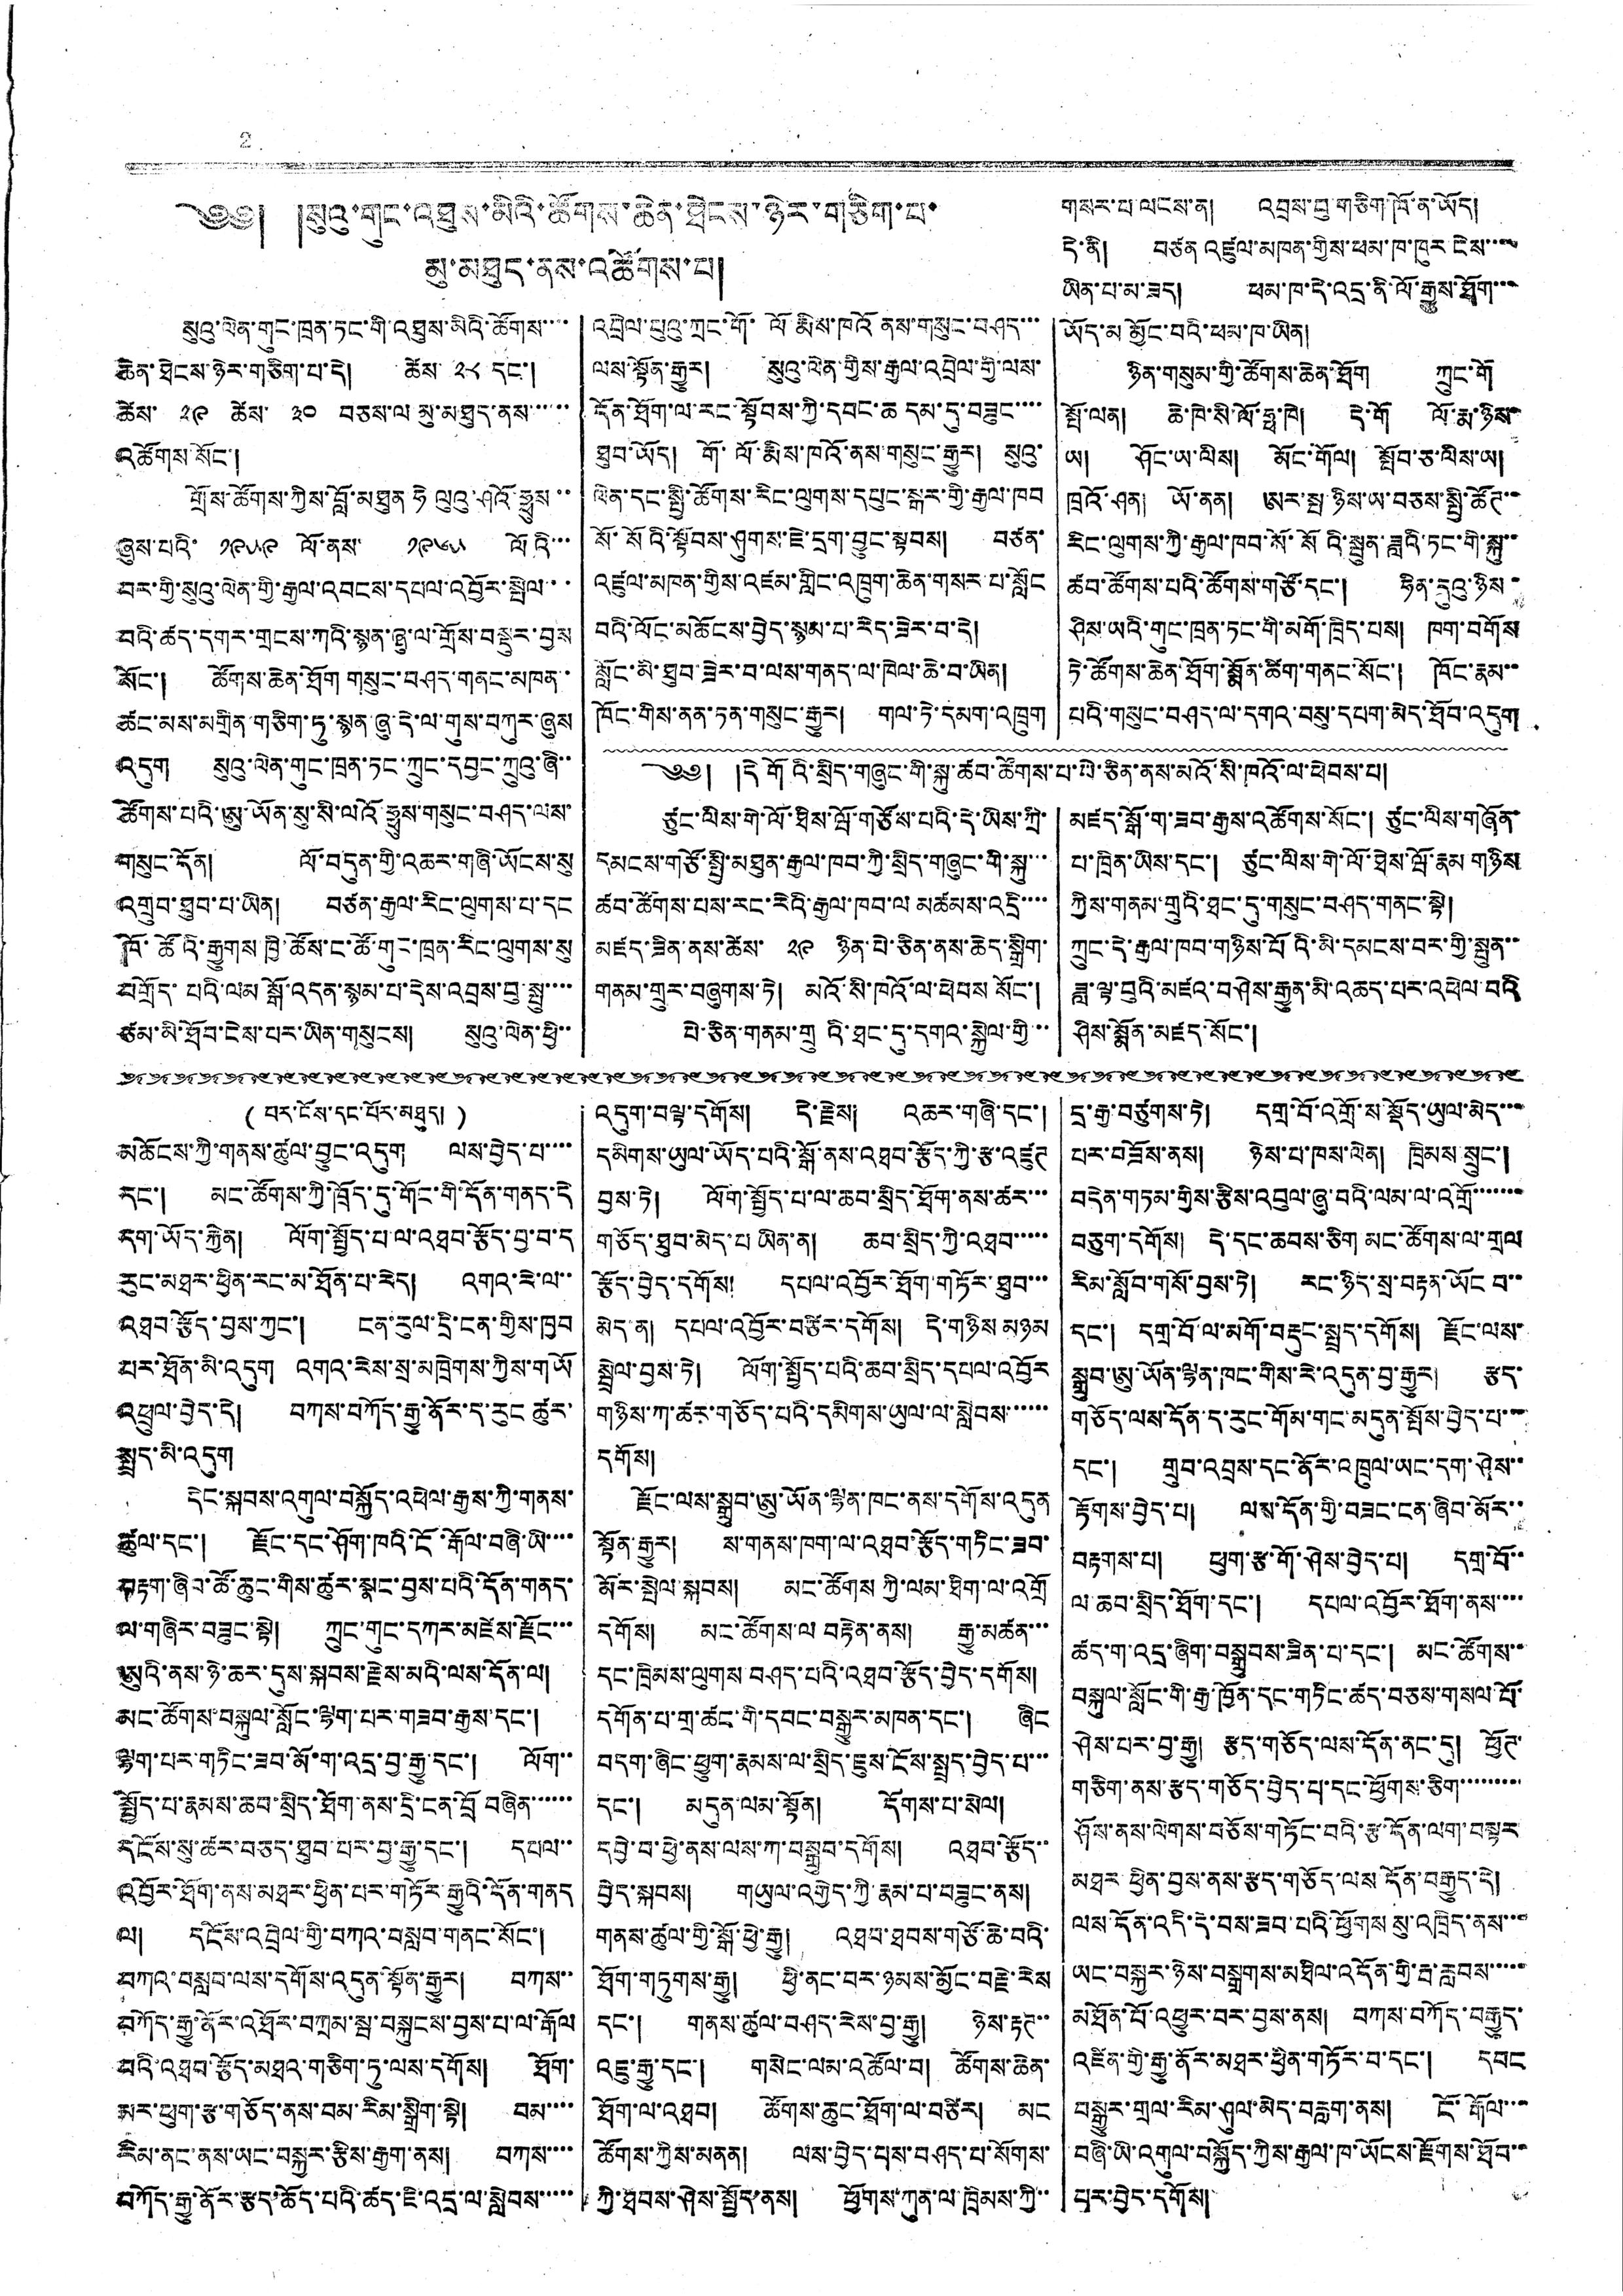2
༄༅། །སུའུ་གུང་འཐུས་མིའི་ཚོགས་ཆེན་ཐེངས་ཉེར་གཅིག་པ་
མུ་མཐུད་ནས་འཚོགས་པ།
སུའུ་ལེན་གུང་ཁྲན་ཏང་གི་འཐུས་མིའི་ཚོགས་་་་
ཆེན་ཐེངས་ཉེར་གཅིག་པ་དེ། ཚེས་ ༢༨ དང་།
ཚེས་ ༢༩ ཚེས་ ༣༠ བཅས་ལ་མུ་མཐུད་ནས་་་་་་
འཚོགས་སོང་།
གྲོས་ཚོགས་ཀྱིས་བློ་མཐུན ཧེ ལུའུ་ཤའོ་ཧྥུས་་
ཞུས་པའི་ ༡༩༥༩ ལོ་ནས་ ༡༩༦༥ ལོའི་་་
བར་གྱི་སུའུ་ལེན་གྱི་རྒྱལ་འབངས་དཔལ་འབྱོར་སྤེལ་་
བའི་ཚད་དགར་གྲངས་ཀའི་སྙན་ཞུ་ལ་གྲོས་བསྡུར་བྱས
སོང་། ཚོགས་ཆེན་ཐོག གསུང་བཤད་གནང་མཁན་་
ཚང་མས་མགྲིན་གཅིག་ཏུ་སྙན་ཞུ་དེ་ལ་གུས་བཀུར་ཞུས
འདུག སུའུ་ལེན་གུང་ཁྲན་ཏང་ཀྲུང་དབྱང་ཀྲུའུ་ཞི་་
ཚོགས་པའི་ཨུ་ཡོན་སུ་སི་ལའོ་ཧྥུས་གསུང་བཤད་ལས་
གསུང་དོན། ལོ་བདུན་གྱི་འཆར་གཞི་ཡོངས་སུ་
འགྲུབ་ཐུབ་པ་ཡིན། བཙན་རྒྱལ་རིང་ལུགས་པ་དང
ཁོ་ཚོའི་རྒྱུགས་ཁྱི་ཚོས་ང་ཚོ་གུང་ཁྲན་རིང་ལུགས་སུ
བགྲོད་པའི་ལམ སྒོ་འདན་སྙམ་པ་དེས་འབྲས་བུ་སྤུ་་་་
ཙམ་མི་ཐོབ་ངེས་པར་ཡིན་གསུངས། སུའུ་ལེན་ཕྱི་་
འབྲེལ་པུའུ་ཀྲང་གོ་ལོ་རྨིས་ཁོའོ ནས་གསུང་བཤད་་་
ལས་སྟོན་རྒྱུར། སུའུ་ལེན་གྱིས་རྒྱལ་འབྲེལ་གྱི་ལས་
དོན་ཐོག་ལ་རང་སྟོབས་ཀྱི་དབང་ཆ དམ་དུ་བཟུང་་་་
ཐུབ་ཡོད། གོ་ལོ་རྨིས་ཁའོ་ནས་གསུང་རྒྱུར། སུའུ་
ལེན་དང་སྤྱི་ཚོགས་རིང་ལུགས་དཔུང་སྒར་གྱི་རྒྱལ་ཁབ
སོ་སོའི་སྟོབས་ཤུགས་ཇེ་དྲག་བྱུང་སྟབས། བཙན་
འཛུལ་མཁན་གྱིས་འཛམ་གླིང་འཁྲུག་ཆེན་གསར་པ་སློང
པའི་ལོང་མཆོངས་བྱེད་སྙམ་པ་རེད་ཟེར་བ་དེ།
སློང་མི་ཐུབ་ཟེར་བ་ལས་གནད་ལ་ཁེལ་ཆེ་བ་ཡིན།
ཁོང་གིས་ནན་ཏན་གསུང་རྒྱུར། གལ་ཏེ་དམག་འཁྲུག
གསར་པ་ལངས་ན། འབྲས་བུ་གཅིག་ཁོ་ན་ཡོད།
དེ་ནི། བཙན འཛུལ་མཁན་གྱིས་ཕམ་ཁ་ཁུར་ངེས་་་་་
ཡིན་པ་མ་ཟད། ཕམ་ཁ་དེ་འདྲ་ནི་ལོ་རྒྱུས་ཐོག་་་
ཡོད་མ མྱོང་བའི་ཕམ་ཁ་ཡིན།
ཉིན་གསུམ་གྱི་ཚོགས་ཆེན་ཐོག ཀྲུང་གོ
སྤོ་ལན། ཆེ་ཁེ་སི་ལོ་ཧྥ་ཁེ། དེ་གོ ལོ་རྨ་ཉིས་
ཡ། ཤོང་ཡ་ལིས། མོང་གོལ། སྤོབ་ཅ་ལིས་ཡ།
ཁྲའོ་ཤན། ཡོ་ནན། ཨར་སྤ་ཉིས་ཡ་བཅས་སྤྱི་ཚོཊ་་
རིང་ལུགས་ཀྱི་རྒྱལ་ཁབ་སོ་སོའི་སྦུན་ཟླའི་ཏང་གི་སྐུ་་
ཚབ་ཚོགས་པའི་ཚོགས་གཙོ་དང་། ཧིན་དུའུ་ཉིས་
ཤིས་ཡའི་གུང་ཁྲན་ཏང་གི་མགོ་ཁྲིད་པས། ཁག་བགོས
ཏེ་ཚོགས་ཆེན་ཐོག་སྨོན་ཚིག་གནང་སོང་། ཁོང་རྣམ་་
པའི་གསུང་བཤད་ལ་དགའ་བསུ་དཔག་མེད་ཐོབ་འདུག
༄༅། །དེ གོའི་སྲིད་གཞུང་གི་སྐུ་ཚབ་ཚོགས་པ་པེ་ཅིན་ནས་མའོ་སི་ཁའོ་ལ་ཕེབས་པ།
ཙུང་ལིས་གེ་ལོ་ཐིས་ཝོ་གཙོས་པའི་དེ་ཡིས་ཀྲི་
དམངས་གཙོ་སྤྱི་མཐུན་རྒྱལ་ཁབ་ཀྱི་སྲིད་གཞུང་གི་སྐུ་་་
ཚབ་ཚོགས་པས་རང་རེའི་རྒྱལ་ཁབ་ལ མཚམས་འདྲི་་་་
མཛད་ཟིན་ནས་ཚེས་ ༢༩ ཉིན་པེ་ཅིན་ནས་ཆེད་སྒྲིག་
གནམ་གྲུར་བཞུགས་ཏེ། མའོ་སི་ཁའོ་ལ་ཕེབས སོང་།
པེ་ཅིན་གནམ་གྲུའི་ཐང་དུ་དགའ་སྐྱེལ་གྱི་་་
མཛད་སྒོ་ག་ཟབ་རྒྱས་འཚོགས་སོང་། ཙུང་ལིས་གཞོན་
པ་ཁྲིན་ཡིས་དང་། ཙུང་ལིས་གེ་ལོ་ཐེས་ཝོ་རྣམ་གཉིས
ཀྱིས་གནམ་གྲུའི་ཐང་དུ་གསུང་བཤད་གནང་སྟེ།
ཀྲུང་དེ་རྒྱལ་ཁབ་གཉིས་པོའི་མི་དམངས་བར་གྱི་སྤུན་་
ཟླ་ལྟ་བུའི་མཛའ་བཤེས་རྒྱུན་མི་འཆད་པར་འཕེལ་བའི
ཤིས་སྨོན་མཛད་སོང་།
( པར་ངོས་དང་པོར་མཐུད། )
མཆོངས་ཀྱི་གནས་ཚུལ་བྱུང་འདུག ལས་བྱེད་པ་་་་
དང་། མང་ཚོགས་ཀྱི་ཁྲོད་དུ་གོང་གི་དོན་གནད་དེ
དག་ཡོད་རྐྱེན། ལོག་སྤྱོད་པ་ལ་འཐབ་རྩོད་བྱ་བ་ད
རུང་མཐར་ཕྱིན་རང་མ་ཐོན་པ་རེད། འགའ་རེ་ལ་་
འཐབ་རྩོད་བྱས་ཀྱང་། ངན་རུལ་དྲི་ངན་གྱིས་ཁྱབ
པར་ཐོན་མི་འདུག འགའ་རེས་སྲ་མཁྲེགས་ཀྱིས་གཡོ
འཕྲུལ་བྱེད་དེ། བཀས་བཀོད་རྒྱུ་ནོར་ད་རུང ཚུར་
སྤྲད་མི་འདུག
དེང་སྐབས་འགུལ་བསྐྱོད་འཕེལ་རྒྱས་ཀྱི་གནས་
ཚུལ་དང་། རྫོང་དང་ཤོག་ཁའི་ངོ་རྒོལ་བཞི་ཡི་་་་
བརྟག་ཞིབ་ཚོ་ཆུང་གིས་ཚུར་སྣང་བྱས་པའི་དོན་གནད་
ལ་གཞིར་བཟུང་སྟེ། ཀྲུང་གུང་དཀར་མཛེས་རྫོང་་་
ཨུའི་ནས་ཉེ་ཆར་དུས་སྐབས་རྗེས་མའི་ལས་དོན་ལ།
མང་ཚོགས་བསྐུལ་སློང་ལྷག་པར་གཟབ་རྒྱས་དང་།
ལྷག་པར་གཏིང་ཟབ་མོ་ག་འདྲ་བྱ་རྒྱུ་དང་། ལོག་་
སྤྱོད་པ་རྣམས་ཆབ་སྲིད་ཐོག་ནས་དྲི་ངན་བྲོ བཞིན་་་་་་
དངོས་སུ་ཚར་བཅད་ཐུབ་པར་བྱ་རྒྱུ་དང་། དཔལ་་
འབྱོར་ཐོག་ནས་མཐར་ཕྱིན་པར་གཏོར་རྒྱུའི་དོན་གནད
ལ། དངོས་འབྲེལ་གྱི་བཀའ་བསླབ་གནང་སོང་།
བཀའ་བསླབ་ལས་དགོས་འདུན་སྟོན་རྒྱུར། བཀས་་
བཀོད་རྒྱུ་ནོར་འཐོར་བཀྲམ་སྦ་བསྐུངས་བྱས་པ་ལ་རྒོལ
བའི་འཐབ་རྩོད་མཐར་གཅིག་ཏུ་ལས་དགོས། ཐོག་
མར་ཕུག་རྩ་གཅོད་ནས་བམ་རིམ་སྒྲིག་སྟེ། བམ་་་་
རིམ་ནང་ནས་ཡང་བསྐྱར་རྩིས་རྒྱག་ནས། བཀས་་་་
བཀོད་རྒྱུ་ནོར་རྩད་ཆོད་པའི་ཚད་ཇི་འདྲ་ལ་སླེབས་་་་
འདུག་བལྟ་དགོས། དེ་རྗེས། འཆར་གཞི་དང་།
དམིགས་ཡུལ་ཡོད་པའི་སྒོ་ནས་འཐབ་རྩོད་ཀྱི་རྩ་འཛུཊ
བྱས་ཏེ། ལོག་སྤྱོད་པ་ལ་ཆབ་སྲིད་ཐོག་ནས་ཚར་་་
གཅོད་ཐུབ་མེད་པ ཡིན་ན། ཆབ་སྲིད་ཀྱི་འཐབ་་་་་
རྩོད་བྱེད་དགོས། དཔལ་བྱོར་ཐོག་གཏོར་ཐུབ་་་
མེད་ན། དཔལ་འབྱོར་བཙིར་དགོས། དེ་གཉིས མཉམ
སྦྲེལ་བྱས་ཏེ། ལོག་སྤྱོད་པའི་ཆབ་སྲིད་དཔལ་འབྱོར
གཉིས་ཀ་ཚར་གཅོད་པའི་དམིགས་ཡུལ་ལ་སླེབས་་་་་་
དགོས།
རྫོང་ལས་སྒྲུབ་ཨུ་ཡོན་ལྷན་ཁང་ནས་དགོས་འདུན
སྟོན་རྒྱུར། ས་གནས་ཁག་ལ་འཐབ་རྩོད་གཏིང་ཟབ་
མོར་སྤེ་སྐབས། མང་ཚོགས ཀྱི་ལམ་ཐིག་ལ་འགྲོ
དགོས། མང་ཚོགས་ལ བརྟེན་ནས། རྒྱུ་མཚན་་་
དང་ཁྲིམས་ལུགས་བཤད་པའི འཐབ་རྩོད་བྱེད་དགོས།
དགོན་པ་གྲ་ཚང་གི་དབང་བསྒྱུར་མཁན་དང་། ཞིང
བདག་ཞིང་ཕྱུག་རྣམས་ལ་སྲིད་ཇུས་ངོས་སྤྲད་བྱེད་པ་་་
དང་། མདུན་ལམ་སྟོན། དོགས་པ་སེལ།
དབྱེ་བ་ཕྱེ་ནས་ལས་ཀ་བསྒྲུབ་དགོས། འཐབ་རྩོད་་
བྱེད་སྐབས། གཡུལ་འགྱེད་ཀྱི་རྣམ་པ་བཟུང་ནས།
གནས་ཚུལ་གྱི་སྒོ་ཕྱེ་རྒྱུ། འཐབ་ཐབས་གཙོ་ཆེ་བའི་
ཐོག་གཏུགས་རྒྱུ། ཕྱི་ནང་བར་ཉམས་མྱོང་བརྗེ་རེས
དང་། གནས་ཚུལ་བཤད་རེས་བྱ་རྒྱུ། ཉེས་རྟཊ་་
འཇུ་རྒྱུ་དང་། གསེང་ལམ་འཚོལ་བ། ཚོགས་ཆེན་
ཐོག་ལ་འཐབ། ཚོགས་ཆུང་ཐོག་ལ་བཙིར། མང
ཚོགས་ཀྱིས་མནན། ལས་བྱེད་པས་བཤད་པ་སོགས་
ཀྱི་ཐབས་ཤེས་སྤྱོད་ནས། ཕྱོགས་ཀུན་ལ་ཁྲིམས་ཀྱི་་
དྲ་རྒྱ་བཙུགས་ཏེ། དགྲ་བོ་འགྲོ་ས་སྡོད་ཡུལ་མེད་་་
པར་བཟོས་ནས། ཉེས་པ་ཁས་ལེན། ཁྲིམས་སྲུང་།
བདེན་གཏམ་གྱིས་རྩིས་འབུལ་ཞུ་བའི་ལམ་ལ་འགྲོ་་་་་་་
བཅུག་དགོས། དེ་དང་ཆབས་ཅིག མང་ཚོགས་ལ་གྲལ
རིམ་སློབ་གསོ་བྱས་ཏེ། རང་ཉིས་སྲ་བརྟེན་ཡོང བ་་
དང་། དགྲ་བོ་ལ་མགོ་བརྡུང་སྤྲད་དགོས། རྫོང་ལས་
སྒྲུབ་ཨུ་ཡོན་ལྷན་ཁང་གིས་རེ་འདུན་བྱ་རྒྱུར། རྩད་
གཅོད་ལས་དོན་ད་རུང་གོམ་གང་མདུན་སྤོས་བྱེད་པ་་་
དང་། གྲུབ་འབྲས་དང་ནོར་འཁྲུལ་ཡང་དག་ཤེས་་
རྟོགས་བྱེད་པ། ལས་དོན་གྱི་བཟང་ངན་ཞིབ་མོར་་
བརྟགས་པ། ཕུག་རྩ་གོ་ཤེས་བྱེད་པ། དགྲ་བོ་་
ལ་ཆབ་སྲིད་ཐོག་དང་། དཔལ་འབྱོར་ཐོག་ནས་་་་
ཚད་ག་འདྲ་ཞིག་བསྒྲུབས་ཟིན་པ་དང་། མང་ཚོགས་་
བསྐུལ་སློང་གི་རྒྱ་ཁྱོན་དང་གཏིང་ཚད་བཅས་གསལ་པོ་
ཤེས་པར་བྱ་རྒྱུ། རྩད་གཅོད་ལས་དོན་ནང་དུ། ཕྱོཊ་
གཅིག་ནས་རྩད་གཅོད་བྱེད་པ་དང་ཕྱོགས་ཅིག་་་་་་་་་
ཤོས་ནས་ལེགས་བཅོས་གཏོང་བའི་རྩ་དོན་ལག་བསྟར
མཐར་ཕྱིན་བྱས་ནས་རྩད་གཅོད་ལས དོན་བརྒྱུད་དེ།
ལས་དོན་འདི་དེ་བས་ཟབ་པའི་ཕྱོགས སུ་འཁྲིད་ནས་་་་
ཡང་བསྐྱར་ཉེས་བསྒྲགས་མཐིལ་འདོན་གྱི་རྦ་རླབས་་་་་
མཐོན་པོ་འཕྱུར་བར་བྱས་ནས། བཀས་བཀོད་བརྒྱུད་
འཛིན་གྱི་རྒྱུ་ནོར་མཐར་ཕྱིན་གཏོར་བ་དང་། དབང
བསྒྱུར་གྲལ་རིམ་ཤུལ་མེད་བརླག་ནས། ངོ་རྒོལ་་་་
བཞི་ཡི་འགུལ་བསྐྱོད་ཀྱིས་རྒྱལ་ཁ་ཡོངས་རྫོགས་ཐོབ་་
པར་བྱེད་དགོས།
